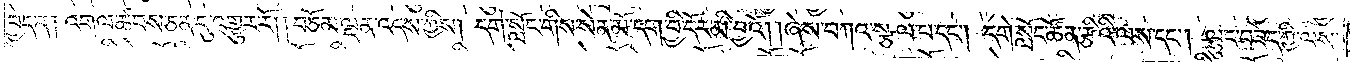བྱེད་ན། འགལ་ཚབས་ཅན་དུ་འགྱུར་རོ། །བཅོམ་ལྡན་འདས་ཀྱིས། དགེ་སློང་གིས་སེན་མོ་དག་བྱི་དོར་མི་བྱའོ། །ཞེས་བཀའ་སྩལ་པ་དང༌། དགེ་སློང་ཚོན་རྩིའི་ལས་དང༌། ལྷུང་བཟེད་ཀྱི་ལས་
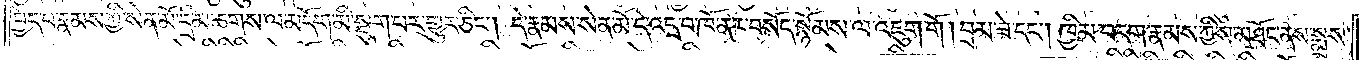བྱེད་པ་རྣམས་ཀྱི་སེན་མོ་དྲི་མ་ཆགས་ལ་མདོག་མི་སྡུག་པར་གྱུར་ཅིང༌། དེ་རྣམས་སེན་མོ་དེ་འདྲ་བ་ཁོ་ནར་བསོད་སྙོམས་ལ་འཇུག་གོ །བྲམ་ཟེ་དང༌། ཁྱིམ་བདག་རྣམས་ཀྱིས་མཐོང་ནས་སྨྲས་
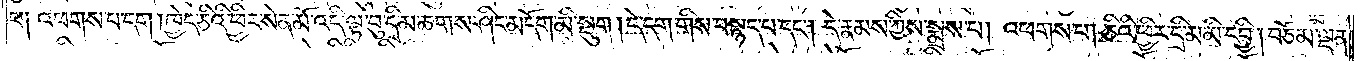པ། འཕགས་པ་དག །ཁྱེད་ཅིའི་ཕྱིར་སེན་མོ་འདི་ལྟ་བུ་དྲི་མ་ཆགས་ཤིང་མདོག་མི་སྡུག །དེ་དག་གིས་བསྙད་པ་དང༌། དེ་རྣམས་ཀྱིས་སྨྲས་པ། འཕགས་པ། ཅིའི་ཕྱིར་དྲི་མ་མི་དབྱི། བཅོམ་ལྡན་
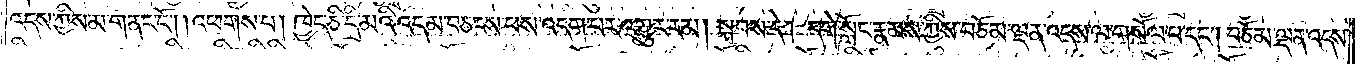འདས་ཀྱིས་མ་གནང་ངོ༌། །འཕགས་པ། ཁྱེད་ཅི་དྲི་མའི་འདམ་བཅངས་པས་འདག་པར་འགྱུར་རམ། སྐབས་དེ། དགེ་སློང་རྣམས་ཀྱིས་བཅོམ་ལྡན་འདས་གསོལ་པ་དང༌། བཅོམ་ལྡན་འདས་
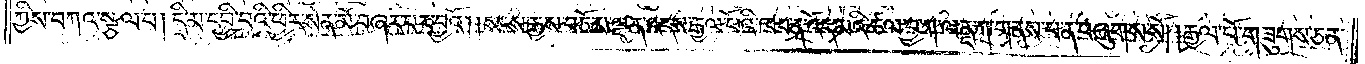ཀྱིས་བཀའ་སྩལ་པ། དྲི་མ་དབྱི་བའི་ཕྱིར་སེན་མོ་བཞར་བར་བྱའོ། །སངས་རྒྱས་བཅོམ་ལྡན་འདས་རྒྱལ་པོའི་ཁབ་ན་འོད་མའི་ཚལ་བྱ་ཀ་ལནྡ་ཀ་གནས་པ་ན་བཞུགས་སོ། །རྒྱལ་པོ་གཟུགས་ཅན་
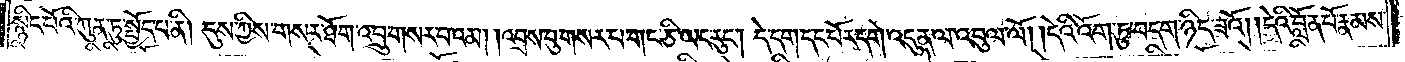སྙིང་པོའི་ཀུན་ཏུ་སྤྱོད་པ་ནི། དུས་ཀྱིས་གསར་ཐོག་འབྲུ་གསར་པའམ། །འབྲས་བུ་གསར་པ་གང་ཅི་ཡང་རུང༌། དེ་དག་དང་པོར་དགེ་འདུན་ལ་འབུལ་ལོ། །དེའི་འོག་ཏུ་བདག་ཉིད་ཟའོ། །དེའི་བློན་པོ་རྣམས་
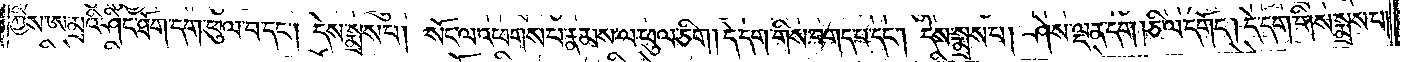ཀྱིས་ཨ་མྲའི་ཤིང་ཐོག་དག་ཕུལ་བ་དང༌། དེས་སྨྲས་པ། སོང་ལ་འཕགས་པ་རྣམས་ལ་ཕུལ་ཅིག །དེ་དག་གིས་བགད་པ་དང༌། དེས་སྨྲས་པ། ཤེས་ལྡན་དག །ཅི་ལ་དགོད། དེ་དག་གིས་སྨྲས་པ།
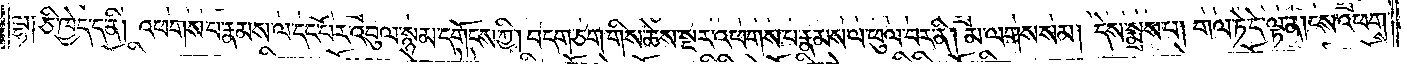ལྷ། ཅི་ཁྱེད་ད་ནི། འཕགས་པ་རྣམས་ལ་དང་པོར་འབུལ་སྙམ་དགོངས་ཀྱི། བདག་ཅག་གིས་ཆེས་སྔར་འཕགས་པ་རྣམས་ལ་ཕུལ་བར་ནི། མ་ལགས་སམ། དེས་སྨྲས་པ། གལ་ཏེ་དེ་ལྟ་ན། ངས་འཕགས་
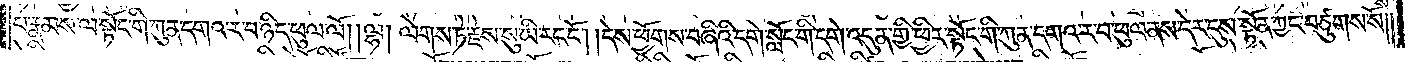པ་རྣམས་ལ་སྟོང་གི་ཀུན་དགའ་ར་བ་ཉིད་ཕུལ་ལོ། །ལྷ། ལེགས་ཏེ་རྗེས་སུ་ཡི་རང་ངོ༌། །དེས་ཕྱོགས་བཞིའི་དགེ་སློང་གི་དགེ་འདུན་གྱི་ཕྱིར་སྟོང་གི་ཀུན་དགའ་ར་བ་ཕུལ་ནས་དེར་དུས་སྟོན་ཀྱང་བཙུགས་སོ༎
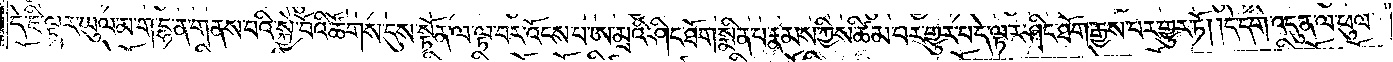དེ་ཇི་ལྟར་ཡུལ་མ་ག་དྷ་ན་གནས་པའི་སྐྱེ་བོའི་ཚོགས་དུས་སྟོན་ལ་ལྟ་བར་འོངས་པ་ཨ་མྲའི་ཤིང་ཐོག་སྨིན་པ་རྣམས་ཀྱིས་ཚིམ་པར་གྱུར་པ་དེ་ལྟར་ཤིང་ཐོག་རྒྱས་པར་གྱུར་ཏོ། །དེ་དགེ་འདུན་ལ་ཕུལ་
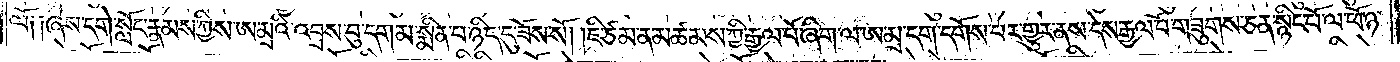ལོ། །ཞེས་དགེ་སློང་རྣམས་ཀྱིས་ཨ་མྲའི་འབྲས་བུ་དག་མ་སྨིན་པ་ཉིད་དུ་ཟོས་སོ། །ཇི་ཙམ་ན་མཚམས་ཀྱི་རྒྱལ་པོ་ཞིག་ལ་ཨ་མྲ་དག་དགོས་པར་གྱུར་ནས་དེས་རྒྱལ་པོ་གཟུགས་ཅན་སྙིང་པོ་ལ་ཕོ་ཉ་
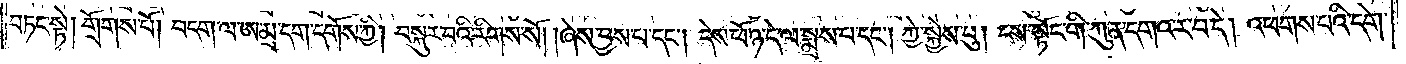བཏང་སྟེ། གྲོགས་པོ། བདག་ལ་ཨ་མྲ་དག་དགོས་ཀྱི། བསྐུར་བའི་རིགས་སོ། །ཞེས་བྱས་པ་དང༌། དེས་ཕོ་ཉ་དེ་ལ་སྨྲས་པ་དང༌། ཀྱེ་སྐྱེས་བུ། ངས་སྟོང་གི་ཀུན་དགའ་ར་བ་དེ། འཕགས་པའི་དགེ་
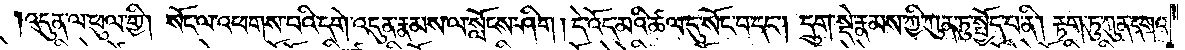འདུན་ལ་ཕུལ་གྱི། སོང་ལ་འཕགས་པའི་དགེ་འདུན་རྣམས་ལ་སློངས་ཤིག །དེ་འོད་མའི་ཚལ་དུ་སོང་བ་དང༌། དྲུག་སྡེ་རྣམས་ཀྱི་ཀུན་ཏུ་སྤྱོད་པ་ནི། རྟག་ཏུ་ཀུན་དགའ་
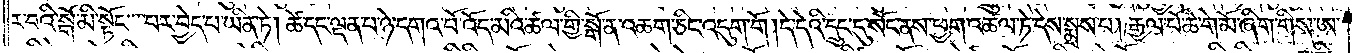ར་བའི་སྒོ་མི་སྟོང་པར་བྱེད་པ་ཡིན་ཏེ། ཚེ་དང་ལྡན་པ་ཉེ་དགའ་བོ་འོད་མའི་ཚལ་གྱི་སྒོ་ན་འཆག་ཅིང་འདུག་གོ །དེ་དེའི་དྲུང་དུ་སོང་ནས་ཕྱག་འཚལ་ཏེ་དེས་སྨྲས་པ། རྒྱལ་པོ་ཆེ་གེ་མོ་ཞིག་གིས་ཨ་
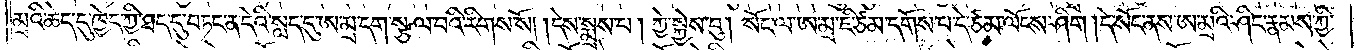མྲའི་ཆེད་དུ་ཁྱེད་ཀྱི་ཐད་དུ་བཏང་ན་དེའི་སླད་དུ་ཨ་མྲ་དག་སྩལ་བའི་རིགས་སོ། །དེས་སྨྲས་པ། ཀྱེ་སྐྱེས་བུ། སོང་ལ་ཨ་མྲ་ཇི་ཙམ་དགོས་པ་དེ་ཙམ་ལོངས་ཤིག །དེ་སོང་ནས་ཨ་མྲའི་ཤིང་རྣམས་ཀྱི་
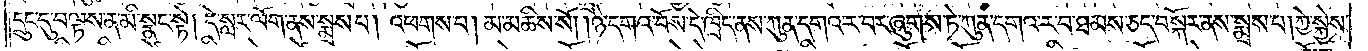དྲུང་དུ་བལྟས་ན་མི་སྣང་སྟེ། དེ་སླར་ལོག་ནས་སྨྲས་པ། འཕགས་པ། མ་མཆིས་སོ། །ཉེ་དགའ་བོས་དེ་ཁྲིད་ནས་ཀུན་དགའ་ར་བར་ཞུགས་ཏེ་ཀུན་དགའ་ར་བ་ཐམས་ཅད་བསྐོར་ནས་སྨྲས་པ། ཀྱེ་སྐྱེས་
